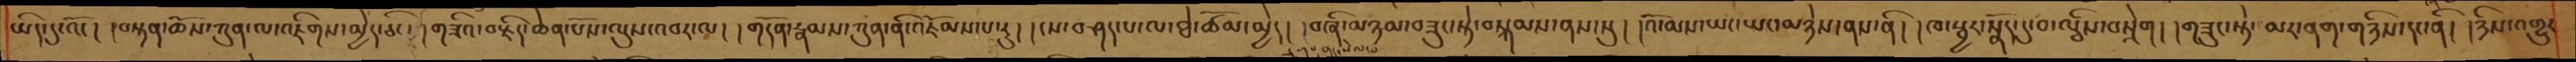ཡིད་དུ་འོང། །བསྟན་ཆོས་ཀུན་ལ་འཇིགས་མྱེད་ཅིང། །གཟིའ་བརྗིད་ཆེན་པོས་ལུས་འབར་ལ། །གདོན་རྣམས་ཀུན་ནི་འཇོམས་པ་རུ། །ངས་བཤད་པ་ལ་ཐེ་ཚོམ་མྱེད། །བཞི་མཉམ་བཟུང་སྟེ་བསྐམས་ནས་སུ། །འོ་མས་ཡང་ཡང་མཉེས་ནས་ནི། །ཁ་སྦྱོར་སྣོད་དུ་བ་ལྕིས་བསྲེག།། །གཟུང་སྟེ་མར་ནག་གཉིས་དང་ནི། །ཉིས་འགྱུར
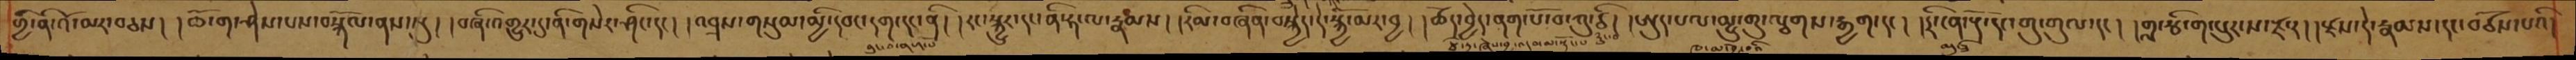གྱི་ནི་འོ་མར་བཅས། །ཆོ་ག་ཤེས་པས་བསྐོལ་ནས་སུ། །བཞི་འགྱུར་དུ་ནི་གསེར་ཤིང་དང། །འབྲས་གསུམ་མྱི་དབང་དག་དང་ནི། །རང་སྐྱུར་དང་ནི་ཧ་ལ་རྣམས། །རིམ་བཞིན་བསྐྱེད་དེ་སྐྱོ་མར་བྱ། །ཚོད་བྱེད་ནག་པོ་བ་ཀུ་ཙི། །ཨུད་པལ་མྱུ་གུ་ལྕགས་རྒྱག་དང། །དྲི་ངན་རྡོ་དང་གུ་གུལ་དང། །གླ་རྩི་ག་པུར་ས་རྫ་ར། །རྫས་དེ་རྣམས་དང་བཙོས་པའི་
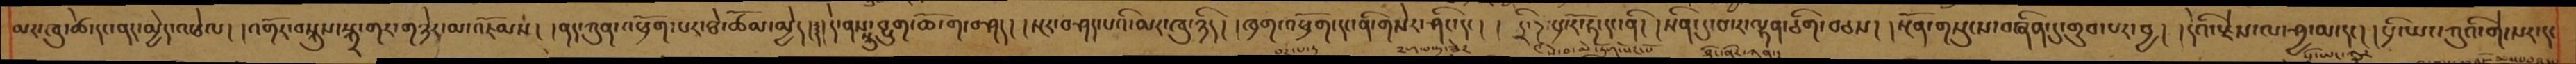མར་ཁུ་ཚེ་དང་ནད་མྱེད་འཕེལ། །འགོར་བསྐུས་སྐྲ་གར་གཉེར་མ་འཇོམས། །ནད་ཀུན་འཕྲོག་པར་ཐེ་ཚོམ་མྱེད། ༈།དེ་ནས་སྐུ་བྱུག་ཆོ་ག་བཤད། །སྔར་བཤད་པའི་མར་ཁུ་ཉིད། །ཁྲག་འཕྲོག་དང་ནི་གསེར་ཤིང་དང། །དྲི་ཌ་དང་རོ་ཧ་དང་ནི། །སིན་དུ་བ་ར་ལྷན་ཅིག་བཅས། །སྔོན་གསུངས་བཞིན་དུ་གྲུབ་པར་བྱ། །དེའི་རྗེས་ལ་ཤྱ་མ་དང། །པྲི་ཡང་ཀུའི་གེ་སར་དང
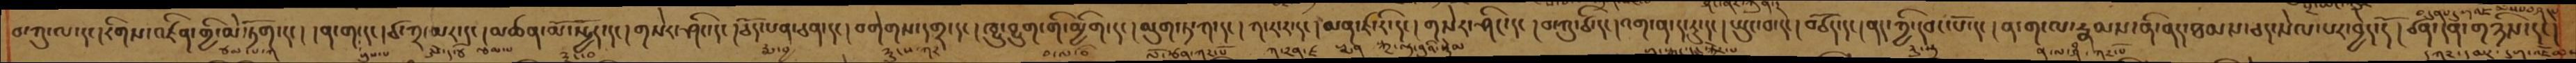བ་ཀུ་ལ་དང་རིགས་འཛིན་གྱི་མེ་ཏོག་དང། །ན་ག་དང། ཙ་ཀྲ་མར་དང། མཚན་མོ་སྤྱོད་དང། གསེར་ཤིང་དང། ཅོད་པན་ཅན་དང། བགེགས་དགྲ་དང། ཁྱུ་བྱུག་གི་མྱིག་དང། མུག་ཏ་ཀ་དང། ཀ་ར་ར་དང། མན་ཛ་རི་དང། གསེར་ཤིང་དང། བ་ཀུ་ཙི་དང། འག་པ་ད་རུ་དང། ཡུང་བ་དེ། བཙོད་དང། ནད་ཀྱི་དབང་པོ་དང། ན་ག་ལ་རྣམས་ནི་ནད་ཐམས་ཅད་སེལ་པར་བྱེད་དེ། ཙན་དན་གཉིས་དང།
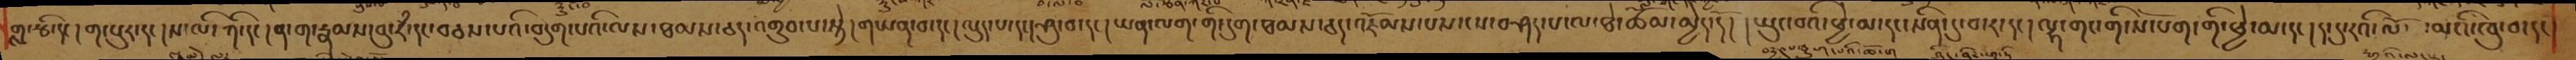གླ་རྩི་དང། ག་པུར་དང། ས་ལི་ཀི་དང། ན་ག་རྣམས་བུ་རྃ་དང་བཅས་པའི་བདུག་པའི་ལས་ཐམས་ཅད་འགྲུབ་པ་སྟེ། གཡན་བ་དང། ལུད་པ་དང། ཤུ་བ་དང། ཡན་ལག་གི་དུག་ཐམས་ཅད་འཇོམས་པས་ངས་བཤད་པ་ལ་ཐེ་ཚོམ་མྱེད་དོ། །སྤུང་བའི་ཕྱེ་མ་དང་སིན་དུ་བ་ར་དང། ལྷ་གང་གི་སོ་པག་གི་ཕྱེ་མ་དང། ད་དུ་རའི་ལོ་མའི་ཁུ་བ་དང
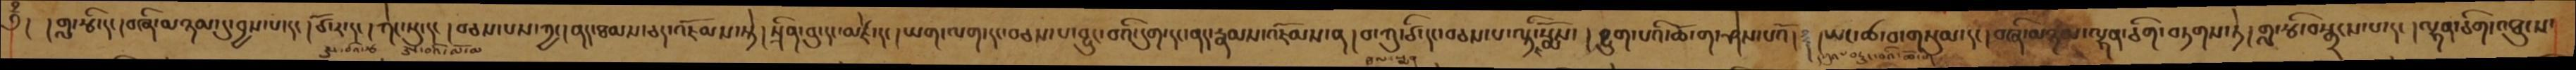༄ྃ། །གླ་རྩི་དང། བཞི་མཉམ་དུ་བྱས་པ་དང། ཙོ་ར་དང། ཀེང་སུ་དང། བཅས་པས་ཀྱང། ནད་ཐམས་ཅད་འཇོམས་སྟེ། སྲིན་བུ་དང་མཛེ་དང། ཡག་ལག་དང་བཅས་པ་བྱུང་བའི་དུག་དང་ནད་རྣམས་འཇོམས་ན། བ་ཀུ་ཙི་དང་བཅས་པ་ལྟ་ཇི་སྨོས། བྱུག་པའི་ཆོ་ག་ཤེས་པའོ། ཡང་ཚ་བ་གསུམ་དང། བཞི་མཉམ་ལྷན་ཅིག་བཏགས་ཏེ། གླ་རྩི་བསྒྲངས་པ་དང། ལྷན་ཅིག་འཐུངས་
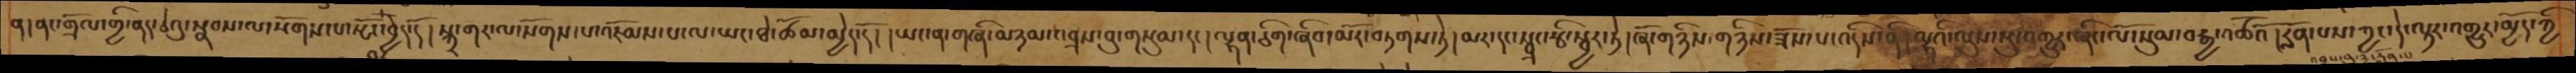ན། ནང་གྲོལ་གྱི་ནད་ཙེའུ་སྣབས་ལ་སོགས་པ་སྤོང་བྱེད་དོ། སྐྲ་གར་ལ་སོགས་པ་འཇོམས་ལ་ཡང་ཐེ་ཚོམ་མྱེད་དོ། ཡང་ན་གཞི་མཉམ་འབྲས་བུ་གསུམ་དང། ལྷན་ཅིག་ཞིབ་མོར་བཏགས་ཏེ། མར་དང་སྦྲང་རྩི་སྦྱར་ཏེ། ཞོ་གཉིས་གཉིས་ཟོས་པ་འདིས་ནི་ལྷའི་ལུས་སུ་འགྱུར་ཞིང་ལོ་སུམ་བརྒྱ་འཚོའོ། རློན་པས་ཀྱང་དེ་ལྟར་འགྱུར་མྱོད་ཀྱི
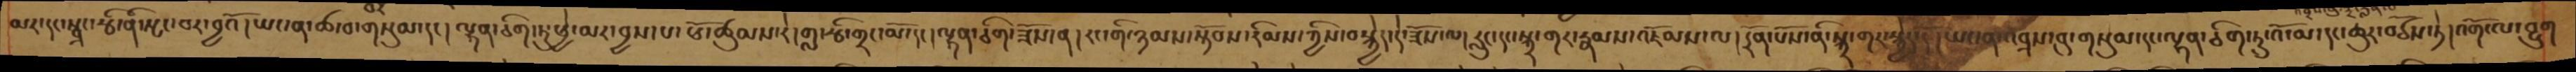མར་དང་སྦྲང་རྩི་ནི་སྤང་བར་བྱའོ། ཡང་ན་ཚ་བ་གསུམ་དང། ལྷན་ཅིག་ཏུ་ཕྱེ་མར་བྱས་པ་ཕོ་ཚུམས་རེ་གླ་རྩི་གྲང་མོ་དང། ལྷན་ཅིག་ཟོས་ན། རང་གི་ཉམས་སྟོབས་ཀྱིས་བསྐྱེད་དེ་ཟོས་ལ། རླུང་དང་སྐྲ་གར་རྣམས་འཇོམས་ལ། དྲོན་པོས་ནི་སྐྲ་གར་སྐྱེད་དོ། ཡང་ན་འབྲས་བུ་གསུམ་དང་ལྷན་ཅིག་ཏུ་འོ་མ་དང་ཆུར་བཙོས་ཏེ། འགོ་ལ་བྱུག
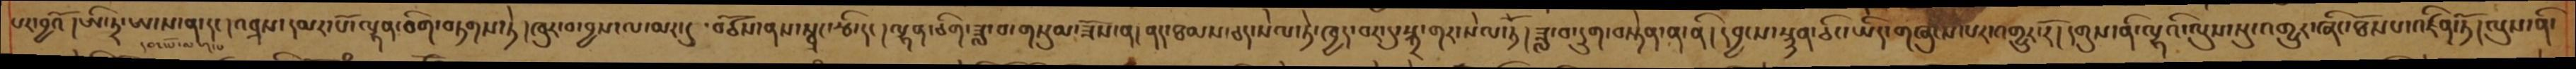པར་བྱའོ། ཨི་ཏྲ་ཨ་ས་ན་དང། འབྲས་དམར་པོ་ལྷན་ཅིག་བཏགས་ཏེ། ཁུར་བ་བྱས་ལ་མར་དུ་བཙོས་ནས་སྦྲང་རྩི་དང། ལྷན་ཅིག་ཟླ་བ་གསུམ་ཟོས་ན། ནད་ཐམས་ཅད་སེལ་ཏེ་ཁྱད་བར་དུ་སྐྲ་གར་སེལ་ཏོ། ཟླ་བ་དྲུག་བསྟེན་ན་ནི། དབྱངས་སྙན་ཅིང་ཡིད་གཞུངས་པར་འགྱུར་རོ། དགུས་ནི་ལྷའི་ལུས་སུ་འགྱུར་ཞིང་ཐོས་པ་འཛིན་ཏོ། ལུས་ནི་
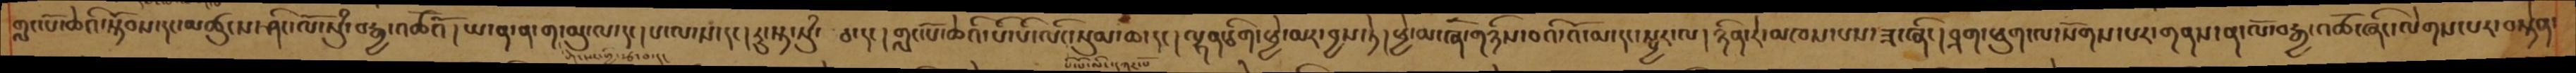གླང་པོ་ཆེའི་སྟོབས་དང་མཚུངས་ཤིང་ལོ་སུཾ་བརྒྱ་འཚོའོ། ཡ་ན་ན་ག་མུ་ལ་དང། པ་ལ་ས་དང། རུ་སྟ་སུཾ་ཅ་དང། གླང་པོ་ཆེའི་པི་པི་ལོང་སུམ་ཆ་དང། ལྷན་ཅིག་ཕྱེ་མར་བྱས་ཏེ། ཕྱེ་མ་ཞོ་གཉིས་བའི་འོ་མ་དང་སྦྱར་ལ། ཉིན་རེ་མཁས་པས་ཟ་ཞིང། བྲག་ཕུག་ལ་སོགས་པར་གནས་ན་ལོ་བརྒྱ་འཚོ་ཞིང་ལེགས་པར་བསྟེན་
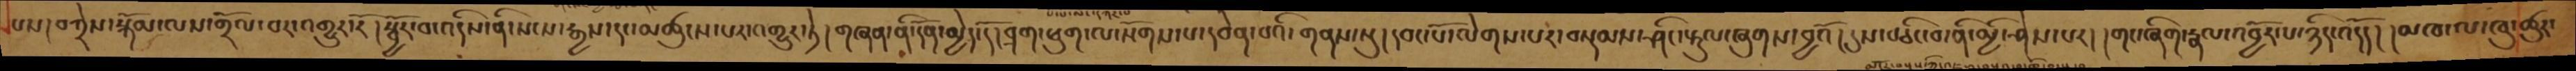པས། བཀྲེས་སྐོམ་ལས་གྲོལ་བར་འགྱུར་རོ། སྦྱོར་བ་འདིས་ནི་སངས་རྒྱས་དང་མཚུངས་པར་འགྱུར་ཏེ། གཞན་ནི་དོན་མྱེད་དོ། བྲག་ཕུག་ལ་སོགས་པ་དབེན་པའི་གནས་སུ། དབང་པོ་ལེགས་པར་བསྡམས་ཤིང་རྟུལ་ཞུགས་བྱའོ། དུས་བཅིང་བ་ནི་མྱི་ཤེས་པར། །གང་ཞིག་རྣལ་འབྱོར་པ་ཉིད་འདོད། །མཁ་ལ་ཁུ་ཚུར་
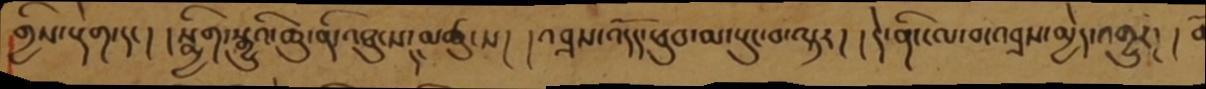གྱིས་རྡེག་དང། །སྨྱིག་སྒྱུའི་ཆུ་ནི་འཐུངས་དང་མཚུངས། །འབྲས་འདོད་ཕུབ་མ་རྡུང་བ་ལྟར། །དེ་ནི་ངལ་བ་འབྲས་མྱེད་འགྱུར། །
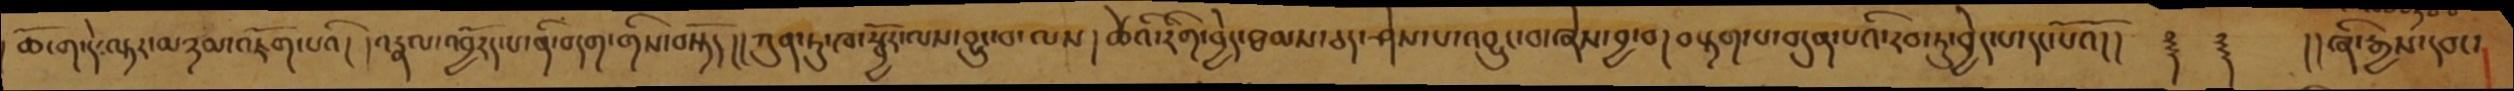ཆོ་ག་དེ་ལྟར་མཉམ་འཇོག་པའི ། །འརྣལ་འབྱོརད་པ་ནི་བདག་གིས་བསྟོད།། ཀུན་ཏུ་ཁ་སྦྱོར་ལས་བྱུང་བ་ལས ། ཚེའི་རིག་བྱེད་ཐམས་ཅད་ཤེས་པ་འབྱུང་བ་ཞེས་བྱ་བ། བརྟག་པ་བདུན་པའི་རབ་ཏུ་བྱེད་པ་དང་པོའོ།།  ࿑  ࿑ །།ཞི་རྒྱས་དབང་
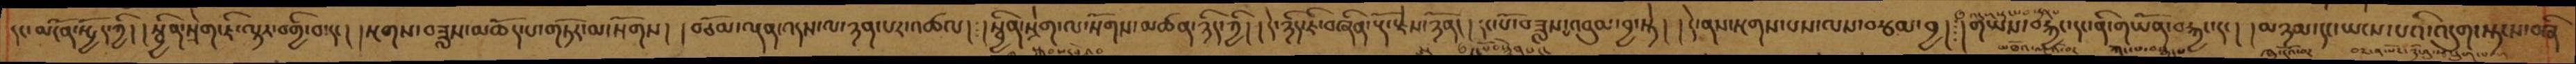དང་མངོན་སྤྱོད་ཀྱི། །སྦྱིན་སྲེག་ཇི་ལྟར་བགྱི་བ་དང། །སྔགས་བཟླས་མཆོད་པ་གཏོར་མ་སོགས། །བཅོམ་ལྡན་འདས་ལ་ཉན་པར་འཚལ། །སྦྱིན་སྲེག་ལ་སོགས་མཚན་ཉིད་ཀྱི། །དེ་ཉིད་ཇི་བཞིན་རྡོ་རྗེས་ཉོན། །དང་པོ་བཟླས་པ་འབུམ་བྱ་སྟེ། །དེ་ནས་སྔགས་པས་ལས་བརྩམ་བྱ།༴།གཡས་བརྐྱང་དང་ནི་གཡོན་བརྐྱང་དང། །མཉམ་དང་ཡངས་པའི་འདུག་སྟངས་བཞི
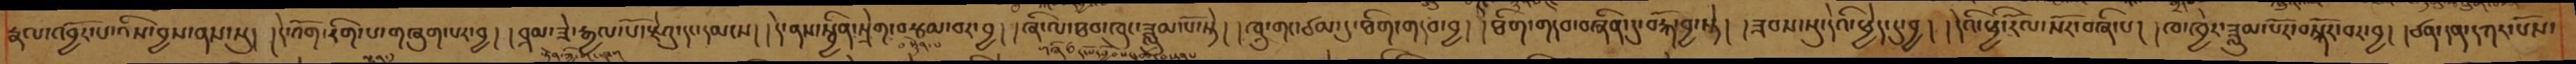རྣལ་འབྱོར་པ་འིས་བྱས་ནས་སུ། །དེ་འོག་རིག་པ་གཞུག་པར་བྱ། །བྲམ་ཟེ་རྒྱལ་པོ་རྗེའུ་དང་དམངས། །དེ་ནས་སྦྱིན་སྲེག་བརྩམ་བར་བྱ། །ཞི་ལ་ཐབ་ཁུང་ཟླུམ་པོ་སྟེ། །ཁྲུ་གང་ཙམ་དུ་ཐིག་གདབ་བྱ། །ཐིག་གདབ་བཞིན་དུ་བརྐོ་བྱ་སྟེ། །ཟབས་སུ་དེའི་ཕྱེད་དུ་བྱ། །དེའི་ཕྱི་རོལ་སོར་བཞི་པ། །ཁ་ཁྱེར་ཟླུམ་པོར་བསྐོར་བར་བྱ། །ཙན་དན་དཀར་པོས་
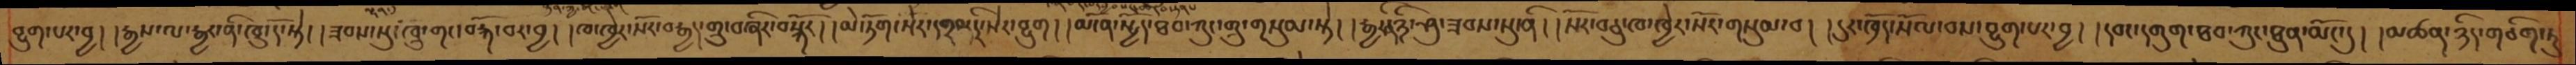བྱུག་པར་བྱ། །རྒྱས་ལ་རྒྱར་ནི་ཁུ་དོ་སྟེ། །ཟབས་སུ་ཁྲུ་གང་བརྐོ་བར་བྱ། །ཁ་ཁྱེར་སོར་བརྒྱད་གྲུ་བཞིར་བསྐོར། །མེ་ཏོག་སེར་དགྲམ་དྲི་སེར་བྱུག། །མངོན་སྤྱོད་ཐབ་ཀུང་གྲུ་གསུམ་སྟེ། །རྒྱར་ནི་ཉི་ཤུ་ཟབས་སུ་ནི། །སོར་བཅུ་ཁ་ཁྱེར་སོར་གསུམ་བ། །དུར་ཁྲོད་སོལ་བས་བྱུག་པར་བྱ། །དབང་དགུག་ཐབ་ཀུང་ཐུན་མོང་དུ། །མཚན་ཉིད་གཅིག་ཏུ
